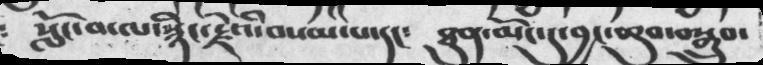སློང་བ་ལ་སྙིང་རྗེའི་བསམ་པ་དང༴  ཐུན་མོང་དུ་བྱང་ཆུབ་བསྒྲུབ་
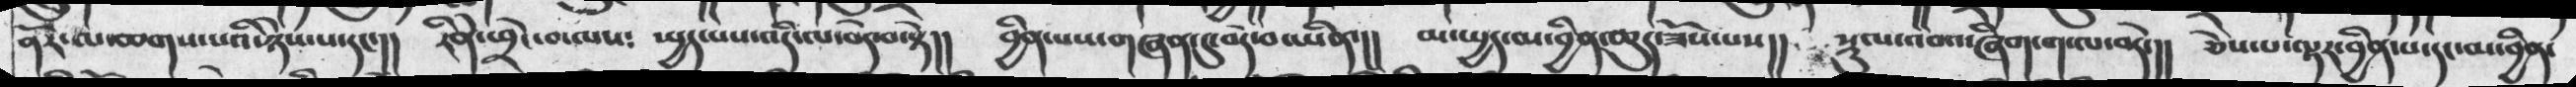ནོར་མ་ཆགས་པའི་ཉེས་པ་དང་།།  རིེན་ཕྲེང་བ་ལས༴ སྤྱད་པས་འདི་ལ་བདེ་བ་སྟེ།།  བྱིན་པས་གཞན་དུ་བདེ་བ་ཡིན་།།  མ་སྤྱད་མ་བྱིན་ཆུད་ཟོས་པས།།  སྡུལ་འབའ་ཞིག་ག་ལ་བདེ་།།  ཅེས་པ་ལྟར་བྱིན་པ་དང་མ་བྱིན་
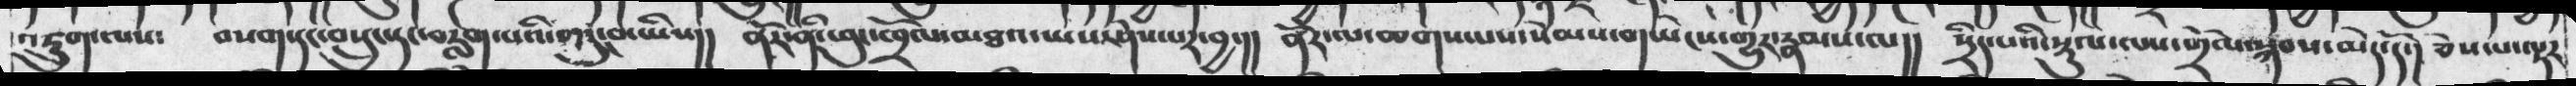འཇུག་ལས༴ བསག་དང་བསྲུང་དང་བརླག་པའི་གདུང་བ་ཡིས།། ནོར་ནི་ཕུང་ཁྲོལ་མཐའ་ཡས་ཤེས་པར་བྱ་།། ནོར་ལ་ཆགས་པས་སེམས་གཡེངས་གྱུར་རྣམས་ལ།། སྲིད་པའི་སྡུལ་ལས་གྲོལ་སྐབས་མེད་དོ་། ཅེས་པ་ལྟར
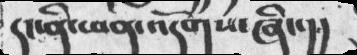དང་ནི་ཕན་འདོགས་ཞིང་།།
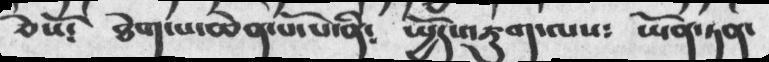ཅེསོ༴  ཐེག་པ་ཆེན་པོ་པ་ནི༴  སྤྱོད་འཇུག་ལས༴ ཡོན་ཏན་
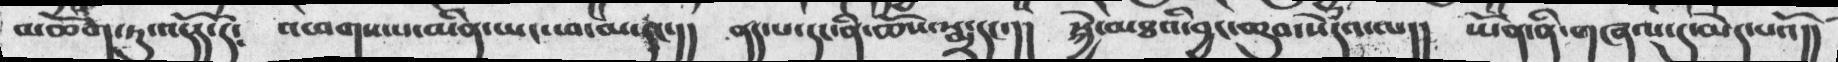མཆོག་ཏུ་འདོད་དོ༴  འཕགས་པ་ནིན་ཡང་ཕ་མ་དང་།།  ནད་པ་དང་ནི་ཆོས་སྨྲ་དང་།།  སྐྱེ་མཐའི་བྱང་ཆུབ་སེཾདའ་ལ།།  ཡོན་ནི་གཞལ་དུ་མེད་པའོ།།
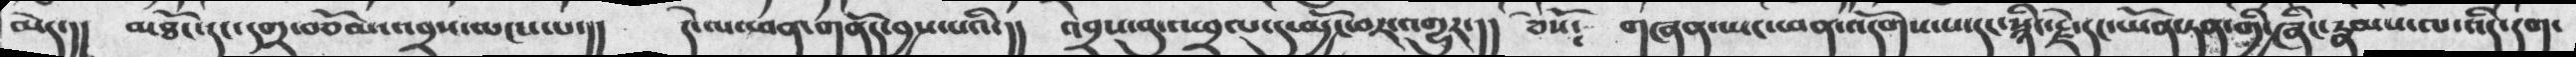མེད་།། མཐོང་དང་དགྲ་བཅོམ་འབྲས་མངས་པ་།། དེ་ལ་ཕན་གནོད་བྱས་པའི་།། འབྲས་བུ་འཕྲལ་དུ་མྱོང་བར་འགྱུར་།། ཅེསོ༴ གཞན་ཡང་ཕན་འདོགས་པ་དང་སྙིང་རྗེ་དང་ཡོན་ཏན་གྱི་ཞིང་རྣམས་ལ་འདི་དག་
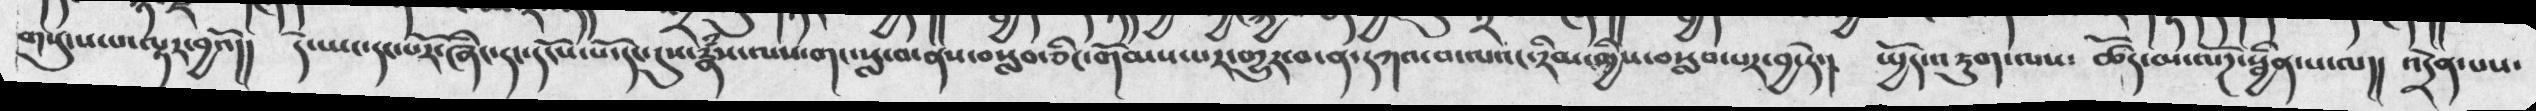གསུང་པ་ལྟར་བྱའོ།། དེ་ཡང་དང་པོར་ཞིང་དང་དངོས་པོ་དང་དུས་རྣཾས་ལས་གང་སླ་བ་ནས་བསླབ་ཅིང་གོམས་པར་གྱུར་བ་ན་དཀའ་བ་ལའང་རིམ་གྱིས་བསླབ་པར་བྱ་ཏེ་།། སྤྱོད་འཇུག་ལས༴ ཚོད་མ་ལོཌ་སྦྱིན་པ་ལ།། འདྲེན་པས་
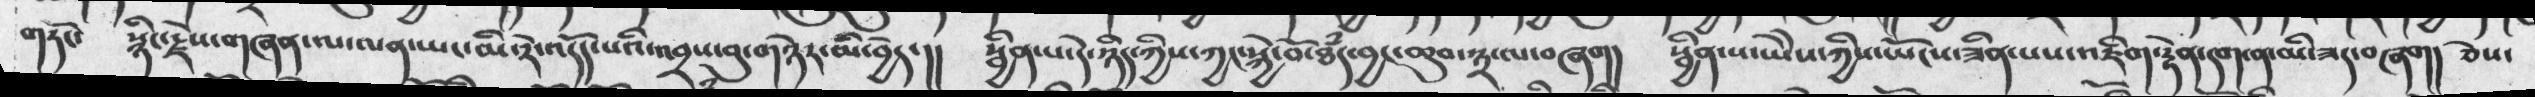གཏོང་ སྙིང་རྗེས་གཞན་ལ་ལན་ཡང་མི་རེ་འདོད་པའི་འབྲས་བུ་གཉེར་མི་བྱེད་།།  སྦྱིན་པ་དེ་ཉིད་ཀྱིས་ཀྱང་སྐྱེ་བོ་ཐཾད་བྱང་ཆུབ་༣་ལ་བཞག།  སྦྱིན་པ་ཡེེས་ཀྱིས་ཡོངས་ཟིན་པས་འཇིག་རྟེན་དག་ན་མི་ཟད་བཞག། ཅེས་
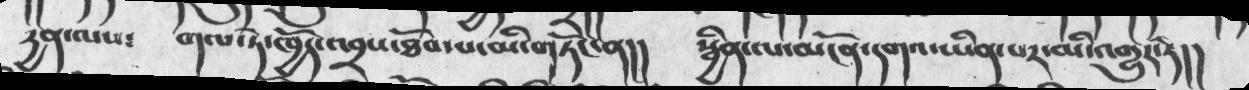དྱན་ལས༴ གལ་ཏེ་ཁྱོད་འབྲས་ཐོབ་པ་མི་གཏོང་ན།། སྦྱིན་ལ་མངོན་དགའ་ཡིན་པར་མི་འགྱུར་ཏེ།།
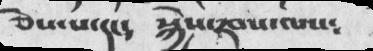ཅེས་པ་དང༴ སྐྱེས་རབས་ལས༴
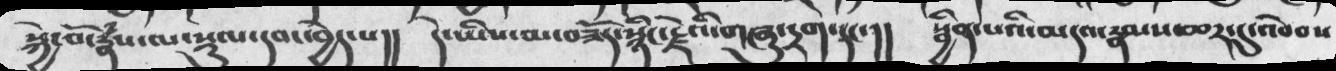སྐྱེ་བོ་རྣཾས་ལ་སྡུལ་དབང་བྱེད་པ།།  དེ་ཡིས་མ་བཟོད་སྙིང་རྗེའི་གཞུ་དྲག་དང་།།  སྦྱིན་པའི་མདའ་རྣམས་ཆར་དུ་འབེབས
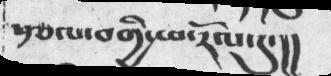སྩལ་བགྱི་ཕ་རོལ་དུ་།།
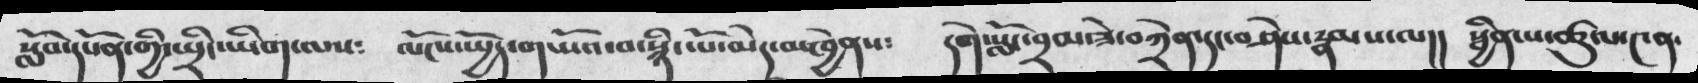སློབ་དཔོན་གྱི་སྤྲིང་ཏིག་ལས༴  ལོངས་སྤྱོད་གཡོའ་བ་སྙིང་པོ་མེད་མཁྱེནས༴  དགེ་སློང་བྲམ་ཟེ་བཀྲེན་དང་བཤེས་རྣམས་ལ།།  སྦྱིན་པ་ཚུལ་༤ན་
